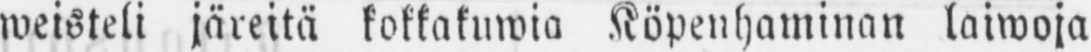weisteli järeitä kokkakuwia Köpenhaminan laiwoja
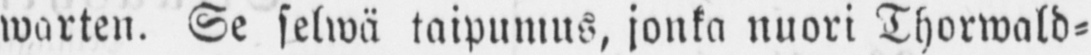warten. Se selwä taipumus, jonka nuori Thorwald-
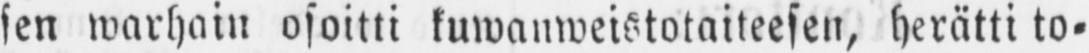sen warhain osoitti kuwanweistotaiteesen, herätti to-
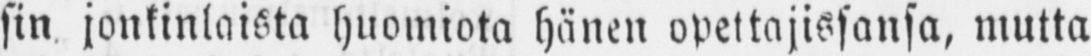sin jonkinlaista huomiota hänen opettajissansa, mutta
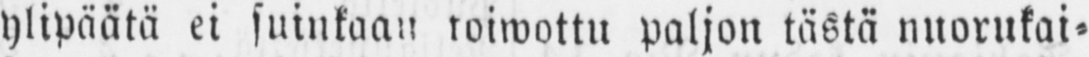ylipäätä ei suinkaan toiwottu paljon tästä nuorukai-
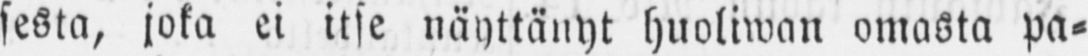sesta, joka ei itse näyttänyt huoliwan omasta pa-
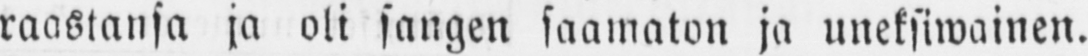raastansa ja oli sangen saamaton ja uneksiwainen.
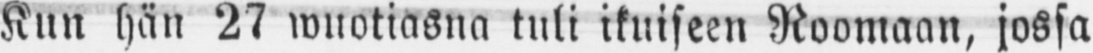Kun hän 27 wuotiasna tuli ikuiseen Roomaan, jossa
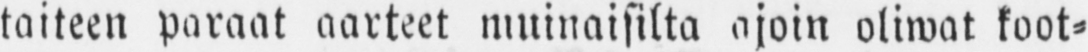taiteen paraat aarteet muinaisilta ajoin oliwat koot-
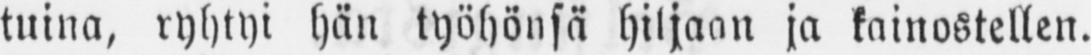tuina, ryhtyi hän työhönsä hiljaan ja kainostellen.
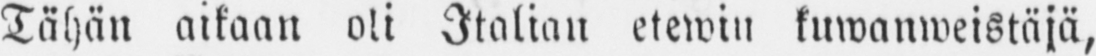Tähän aikaan oli Italian etewin kuwanweistäjä,
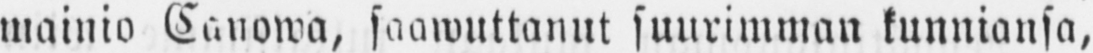mainio Canowa, saawuttanut suurimman kunniansa,
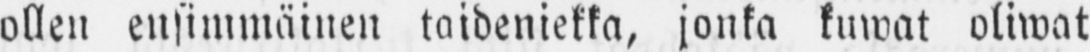ollen ensimmäinen taideniekka, jonka kuwat oliwat
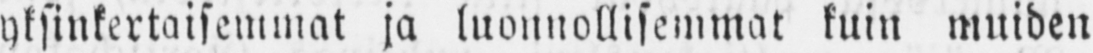yksinkertaisemmat ja luonnollisemmat kuin muiden
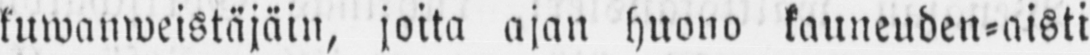kuwanweistäjäin, joita ajan huono kauneuden-aisti
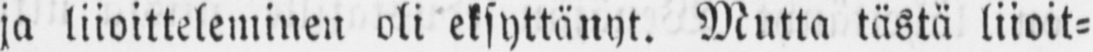ja liioitteleminen oli eksyttänyt. Mutta tästä liioit-
